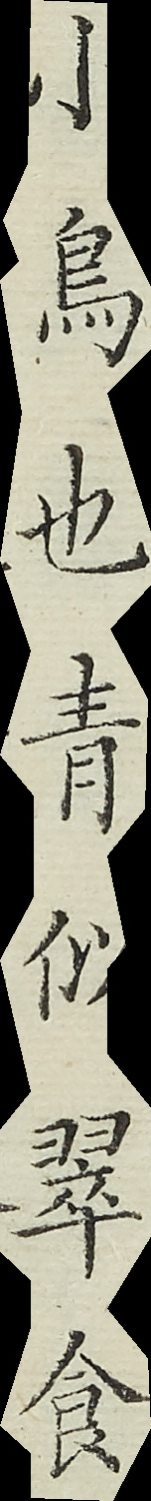小鳥也青似翠食
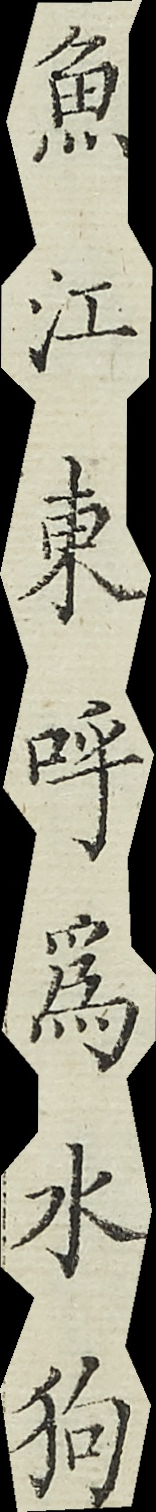魚江東呼為水狗
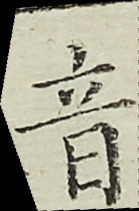音
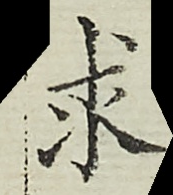求
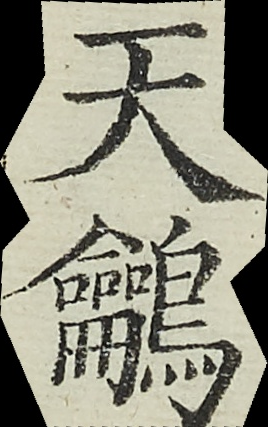天鸙
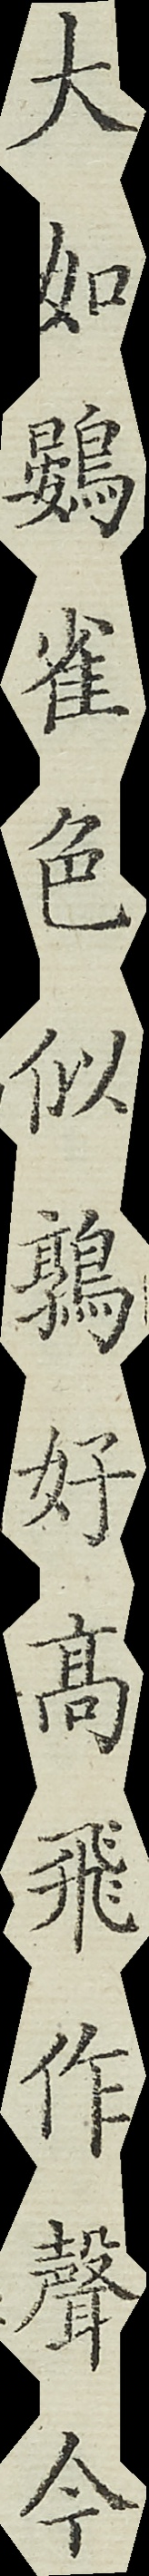大如鷃雀色似鶉好高飛作聲今
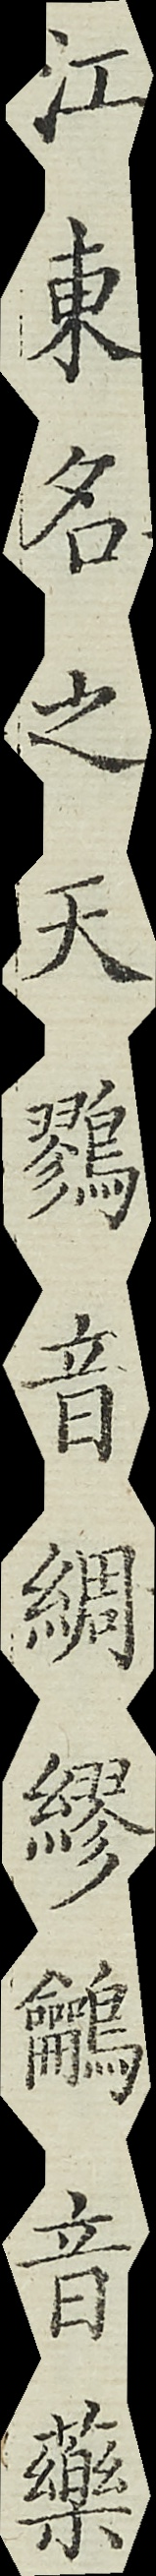江東名之曰天鷚音綢繆鸙音藥
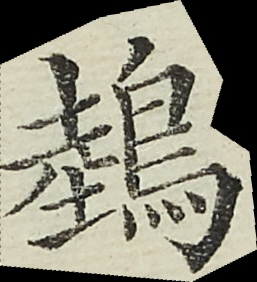鵱
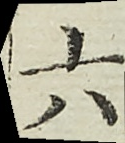六
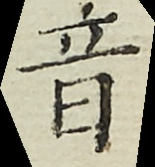音
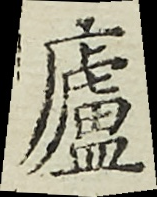盧
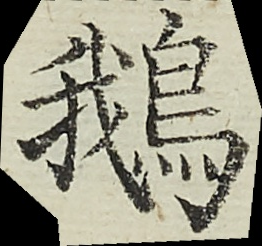鵝
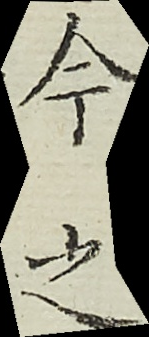今之
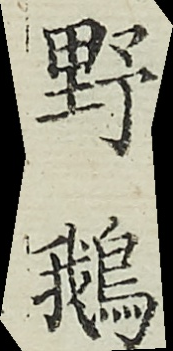野鵝
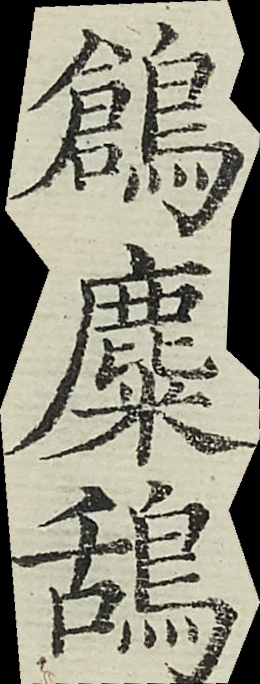鶬麋鴰
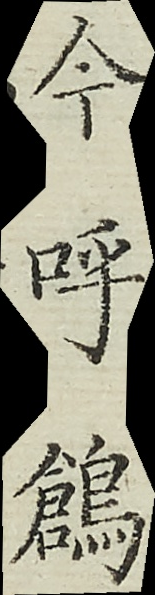今呼鶬
